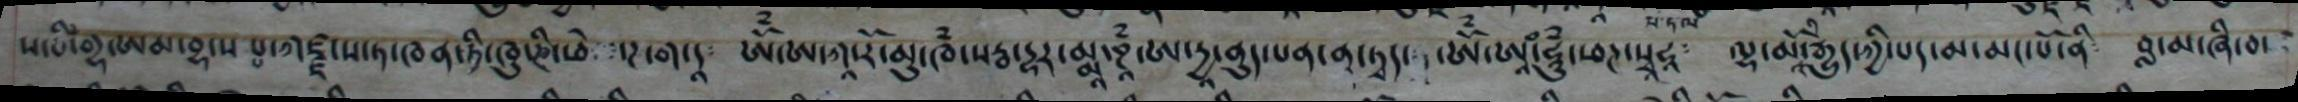ས་བི་གྷ་ཨམ་བྷ་ས་པྤ་ཀ་ཛྫ་ས་ཏ་ཁན་ཏི་ཁུ་ཎི་ཕེ  ་ཌ་ག་དཱ༴  ཨོྃ་ཨ་ཀཱ་རོ་མུ་ཁྃ་སརྦ་དྷར་མྨཱ་ཎཱྃ་ཨ་དྱཱ་ནུད་པན་ན་ཏཱད་   ཨོྃ་ཨཱཾ་ཧཱུྃ་ཕཌ་སྭཱ་ཧཱ༴  ལྷ་མོའི་རྒྱུད་ཀྱི་པད་མ་མང་པོ་ནི༴  བླ་མ་ཞི་བ་
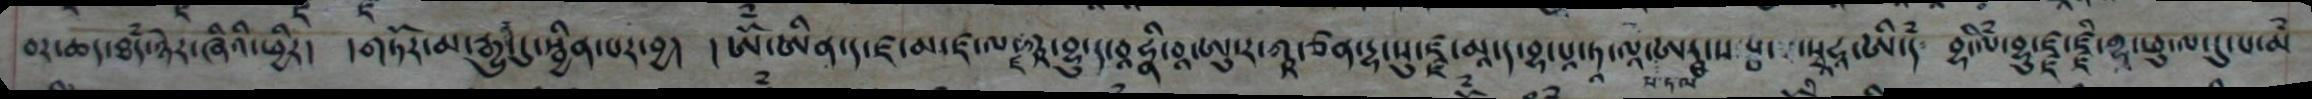བར་ཆད་ཐཾད་ཉེར་ཞིའི་ཕྱིར།  །གཏོར་མ་རྒྱུན་དུ་སྦྱིན་པར་བྱ།  །ཨོྃ་ཨིན་ད་ཛ་མ་ཛ་ལ་ཛ་ཀྵ་བྷུ་ད་བཱཧྣི་བཱ་ཨུ་ར་ཀྵ་ཙན་དྷ་སུ་ཛྫ་མཱ་ད་བྷ་པཱ་ཏཱ་ལཱ་པ་ཏ་ལ་ཨར་ས་སྦ་  སྭཱཧཱ་ཨི་དཾ༴  བྷི་ལཾ་བྷུ་ཛྫ་ཛྫི་གྷ་ཕུ་ལ་དུ་པ་མཾ
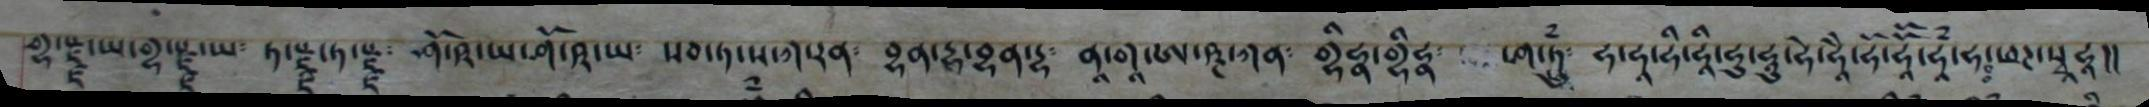གྷ་སྫྫ་ཡ་གྷ་སྫྫ་ཡ༴ ཏ་སྫྫ་ཏ་སྫྫ༴ ཤོ་ཥེ་ཡ་ཤོ་ཥ་ཡ༴ སབ་ཏ་ས་ཀ་རན༴ བྷན་དྷ་བྷན་དྷ༴ ནཱ་གཱ་ཨ་ཥྚ་ཀན༴ གྷིཧྣ་གྷིཧྣ༴ ཤ་ཏཱུཾ༴ ཧ་ཧཱ་ཧི་ཧཱི་ཧུ་ཧཱུ་ཧེ་ཧཱཻ་ཧོ་ཧཱོོ་ཧཱཾ་ཧཿ  ཕཊ་སྭཱ་ཧཱ།།
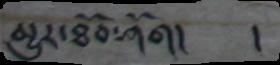མྱུར་ཐོབ་ཤོག། །
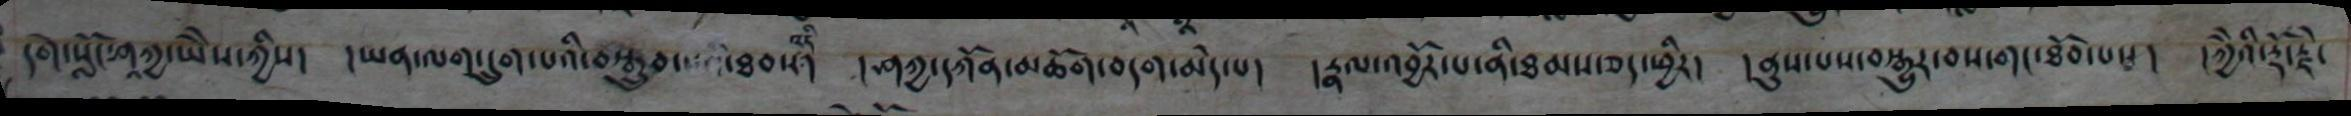དག་སློང་ཤཱཀྱ་ཡེེས་ཀྱིས།  །ཡན་ལག་དྲུག་པའི་བསྒྲུབ་པའི་ཐབས་འདི།  །ཤཀྱ་དཀོན་མཆོག་བདག་མེད་པ།  །རྣལ་འབྱོར་པ་ནི་ཐམས་ཅད་ཕྱིར།   །ནུས་པས་བསྒྱུར་བས་གང་ཐོབ་པས།   །སྐྱེེའི་རྡོ་རྗེ་
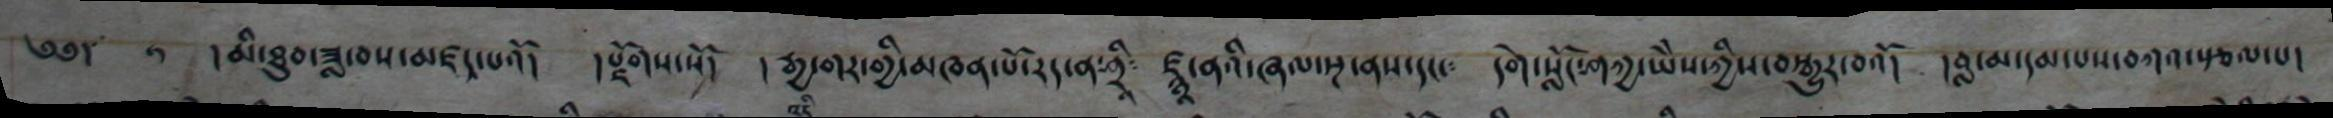༄༅། །མི་ཐུབ་ཟླ་བས་མཛད་པའོ། །སྫོགས་སོ། །རྒྱ་གར་གྱི་མཁན་པོ་རད་ན་ཤྲཱི༴ ཛྙཱ་ནའི་ཞལ་སྔ་ནས་དང༴ དགེ་སློང་ཤཀྱ་ཡཻས་ཀྱིས་བསྒྱུར་བའོ། །བླ་མ་དམ་པས་བཀའ་སྩལ་པ།
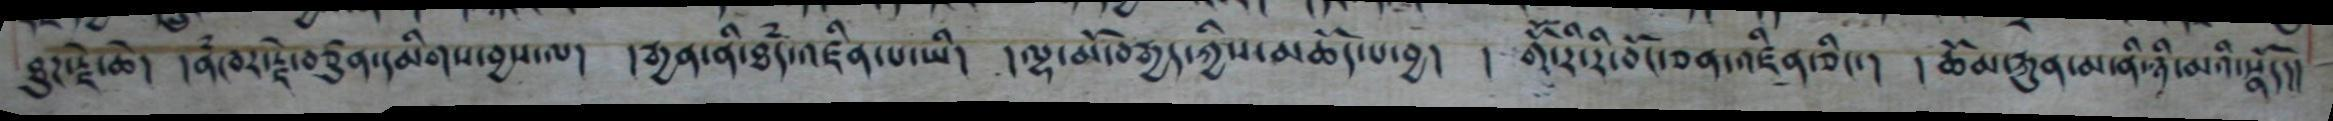ཐུཌ་རྗེ་ཆེ། །ནཾཁར་རྗེ་བཙུན་དམིགས་བྱས་ལ། །རྒྱན་ནོ་ཐཾད་འཛིན་པ་ཡི། །ལྷ་མོ་བརྒྱད་ཀྱིས་མཆོད་པ་བྱ། ། གོོ་རི་རི་བོང་ཅན་འཛིན་ཅིང་། །ཆོམ་རྐུན་མ་ནི་ཉི་མའི་སྣོད།།
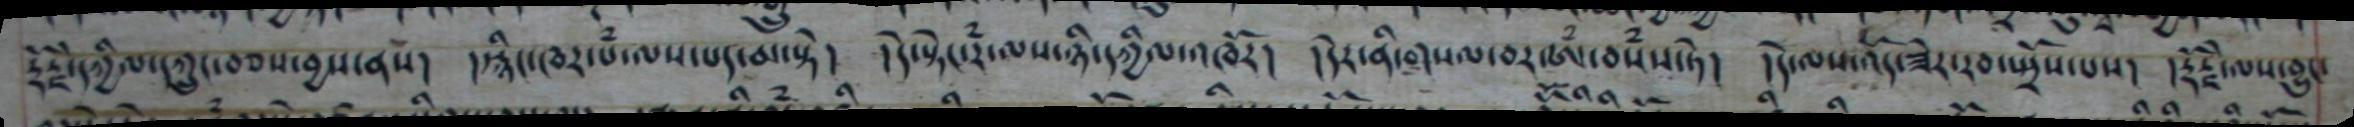རྡོ་རྗེ་དཀྱིལ་དཀྲུང་བཅས་བྱས་ནས། །སྙིང་ཁར་པཾ་ལས་པད་མ་སྟེ། །དེ་སྟེང་རཾ་ལས་ཉི་དཀྱིལ་འཁོར། །དེར་ནི་གསལ་བར་ཨཾ་བསཾས་ཏེ། །དེ་ལས་འོད་ཟེར་རབ་སྤྲོས་པས། །རྡོ་རྗེ་ལས་བྱུང་
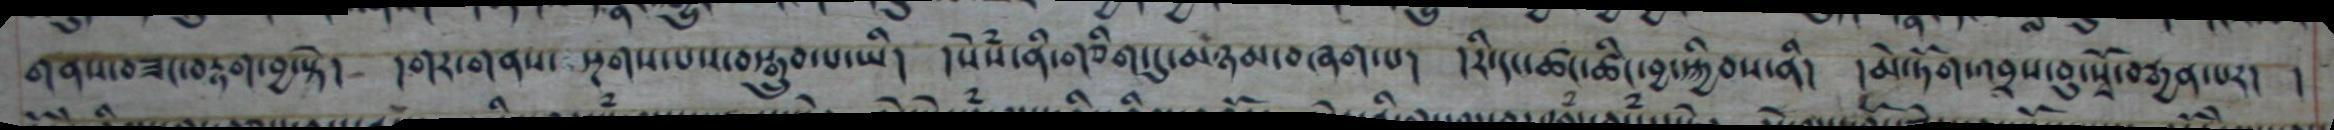གནས་བཟང་རྟག་བྱ་སྟེ། །གར་གནས་ སྔགས་པས་བསྒྲུབ་པ་ཡི། །སེསཾ་ནི་གཅིག་དུ་མཉམ་བཞག་པ། །རི་དང་ཚང་ཚིང་བྱ་སྐྱིབས་ནི། །མེ་ཏོག་འབྲས་བུ་སྭོ་བརྒྱན་པར། །
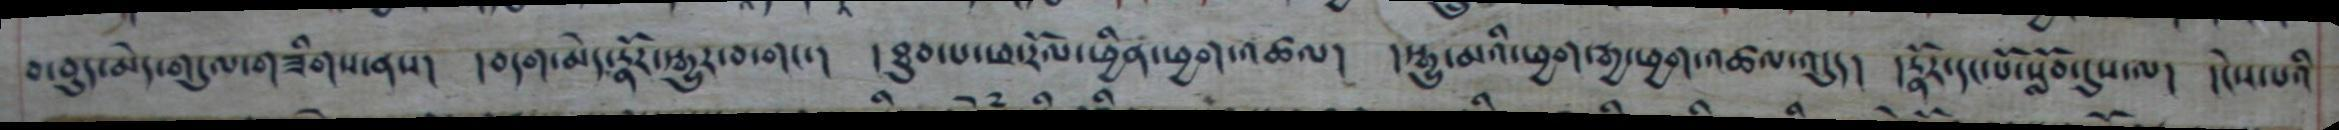བ་བུད་མེད་གདུལ་གཟིགས་ནས། །བདག་མེད་རྣོར་སྒྱུར་བ་གང་། །ཐུབ་པ་ཕ་རོལ་ཕྱིན་ཕྱག་འཚལ། །སྒྱུ་མའི་ཕྱག་རྒྱ་ཕྱག་འཚལ་འདུད། །རྣོར་དང་པོ་སློབ་དུས་ལ། །ངེས་པའི
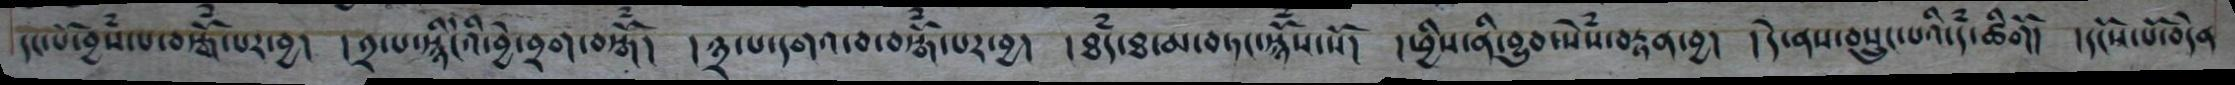དང་པོ་བྱཾས་པ་བསྒོཾ་པར་བྱ། །༢་པ་སྙིངེའི་བྱེ་བྲག་བསྒོཾ། །༣་པ་དགའ་བ་བསྒོཾ་པར་བྱ། །ཐཾད་ཐ་མ་བཏང་སྙོཾས་སོ། །ཕྱིས་ནི་བྱུབ་སེཾས་བརྟན་བྱ། །དེ་ནས་བསྲུང་པའི་དཾ་ཚིགོ། །དངོས་པོ་བདེན
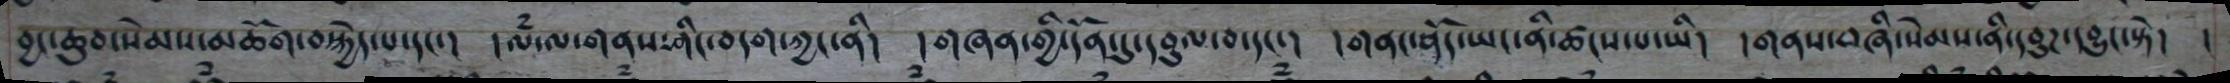བྱང་ཆུབ་སེམས་མཆོག་བསྐྱེད་པ་དང་། །ལཾ་ལ་གནས་ཤིང་བདག་ཀྱང་ནི། །གཞན་གྱི་དོན་དུ་དབུལ་བ་དང་། །གནང་ནོད་ཡང་ནི་ཚངས་པ་ཡི། །གནས་བཞི་སེམས་ནི་དབུཌ་དབྱུང་སྟེ། །
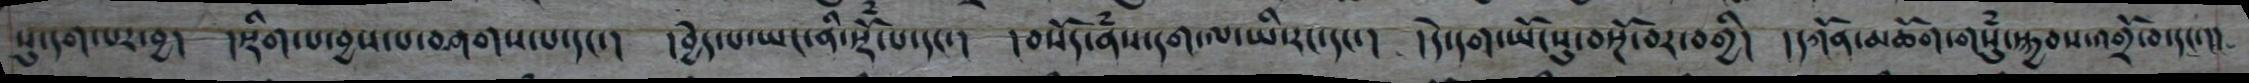སུ་དག་པར་བྱ།  །སྡིག་པ་བྱས་པ་བཤགས་པ་དང་།  །བྱེད་པ་ཡང་ནི་སྡོཾ་པ་དང་།  །བསོད་ནཾས་དག་ལ་ཡི་རང་དང་།  །དེ་དག་ཡོང་སུ་བསྔོ་བར་བགྱི།  །དཀོན་མཆོག་གསུཾ་སྐྱབས་འགྲོ་བ་དང་།།
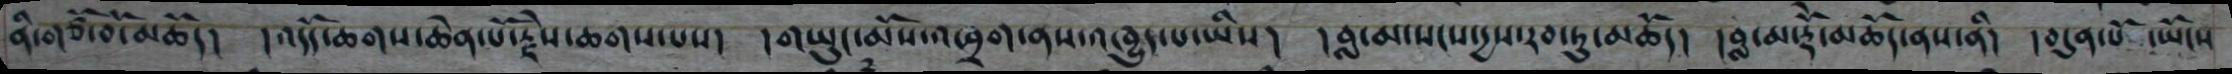ནི་གཙོ་བོ་མཆོད།  །འདོད་ཆགས་ཆེན་པོ་རྗེས་ཆགས་པས།  །གཡུང་མོས་འཁྲག་ནས་འཁྱུད་པ་ཡིས།  བླ་མ་སངས་རྱས་རབ་ཏུ་མཆོད།   །བླ་མ་རྡོེ་མཆོད་ནས་ནི།  །བདུན་པོ་ཡོངས
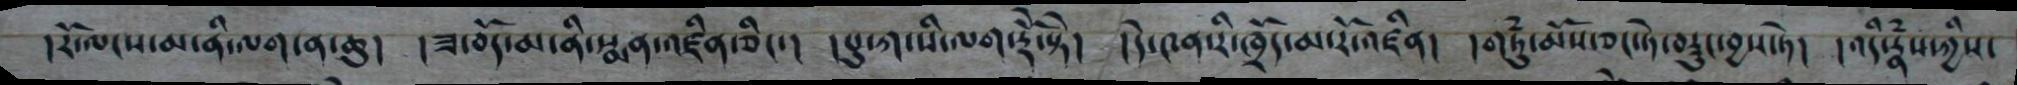།རོ་ལངས་མ་ནི་ལག་ན་ཆུ།  །ཟ་བོད་མ་ནི་སྨན་འཛིན་ཅིང་། །སུ་ཀ་སི་ལག་རྡོེ་སྟེ།  །དེ་༤ན་རི་ཁྲོད་མ་རོ་འཛིན།  གཏུཾ་མོས་ཅང་ཏེ་བདྲུང་བྱས་ཏེ།  །འདི་རྣཾས་ཀྱིས་
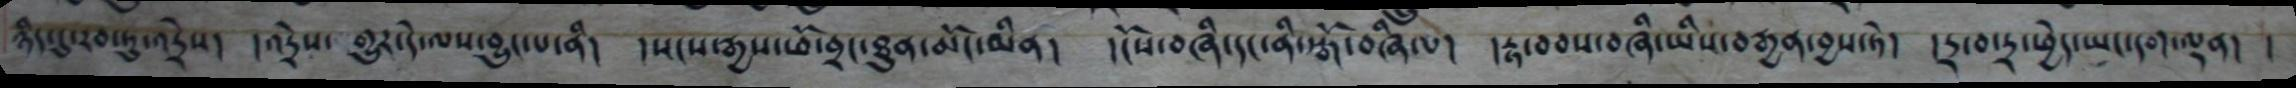ཉིད་དུ་རབ་ཏུ་འདྲེས།  །འདྲེས་ གྱུར་དེ་ལས་བྱུངས་ནཾ།  །སངས་རྒྱས་ཕོ་བྲང་ཐུན་མོང་མིན། དངོས་གཞི་དང་ནི་སྒོ་བཞི་པ། །རྟ་བབས་བཞི་ཡིས་བརྒྱན་བྱས་ཏེ།  །དྲ་བ་དྲ་ཕྱེད་ཡང་དག་ལྡན།  །
